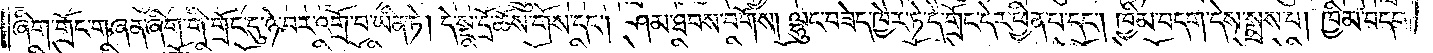ཞིག་གྲོང་གཞན་ཞིག་གི་གྲོང་དུ་ཉེ་བར་འགྲོ་བ་ཡིན་ཏེ། དེ་སྔ་དྲོ་ཆོས་གོས་དང༌། ཤམ་ཐབས་བགོས། ལྷུང་བཟེད་ཁྱེར་ཏེ་དེ་གྲོང་དེར་ཕྱིན་པ་དང༌། ཁྱིམ་བདག་དེས་སྨྲས་པ། ཁྱིམ་བདག་
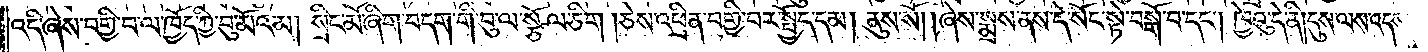འདི་ཞེས་བགྱི་བ་ལ་ཁྱོད་ཀྱི་བུ་མོའམ། སྲིང་མོ་ཞིག་བདག་གི་བུ་ལ་སྩོལ་ཅིག །ཅེས་འཕྲིན་བགྱི་བར་སྤྱོད་དམ། ནུས་སོ། །ཞེས་སྨྲས་ནས་དེ་སོང་སྟེ་བསྒོ་བ་དང༌། ཁྱེའུ་དེ་ནི། དུས་ལས་འདས་
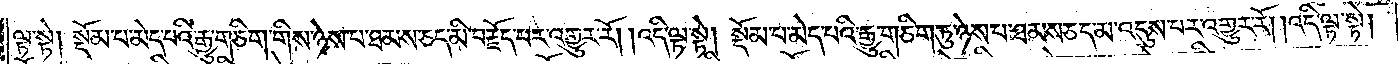ལྟ་སྟེ། སྡོམ་པ་མེད་པའི་རྒྱུ་གཅིག་གིས་ཉེས་པ་ཐམས་ཅད་མི་བརྗོད་པར་འགྱུར་རོ། །འདི་ལྟ་སྟེ། སྡོམ་པ་མེད་པའི་རྒྱུ་གཅིག་ཏུ་ཉེས་པ་ཐམས་ཅད་མ་འདུས་པར་འགྱུར་རོ། །འདི་ལྟ་སྟེ།
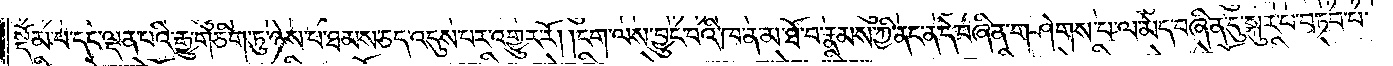སྡོམ་པ་དང་ལྡན་པའི་རྒྱུ་གཅིག་ཏུ་ཉེས་པ་ཐམས་ཅད་དུ་འདུས་པར་འགྱུར་རོ། །ངག་ལས་བྱུང་བའི་ཁ་ན་མ་ཐོ་བ་རྣམས་ཀྱི་ནང་ན་དེ་བཞིན་གཤེགས་པ་ལ་མེད་བཞིན་དུ་སྐུར་པ་བཏབ་པ་
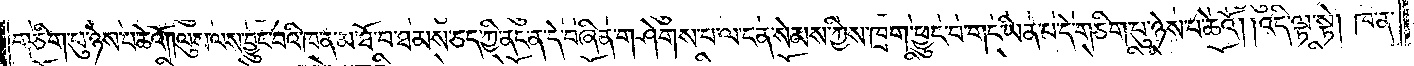གཅིག་པུ་ཉེས་པ་ཆེའོ། །ལུས་ལས་བྱུང་བའི་ཁ་ན་མ་ཐོ་བ་ཐམས་ཅད་ཀྱི་ནང་ན་དེ་བཞིན་གཤེགས་པ་ལ་ངན་སེམས་ཀྱིས་ཁྲག་ཕྱུང་བ་གང་ཡིན་པ་དེ་གཅིག་པུ་ཉེས་པ་ཆེའོ། །འདི་ལྟ་སྟེ། ཁ་ན་
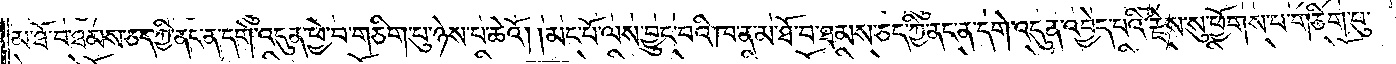མ་ཐོ་བ་ཐམས་ཅད་ཀྱི་ནང་ན་དགེ་འདུན་ཕྱེ་བ་གཅིག་པུ་ཉེས་པ་ཆེའོ། །མང་པོ་ལས་བྱུང་བའི་ཁ་ན་མ་བ་ཐོ་བ་ཐམས་ཅད་ཀྱི་ནང་ན་དགེ་འདུན་འབྱེད་པའི་རྗེས་སུ་ཕྱོགས་པ་གཅིག་པུ་
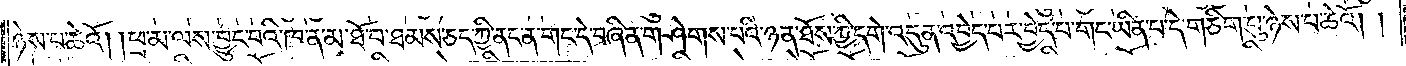ཉེས་པ་ཆེའོ། །ཕྲ་མ་ལས་བྱུང་བའི་ཁ་ན་མ་ཐོ་བ་ཐམས་ཅད་ཀྱི་ནང་ན་གང་དེ་བཞིན་གཤེགས་པའི་ཉན་ཐོས་ཀྱི་དགེ་འདུན་འབྱེད་པར་བྱེད་པ་གང་ཡིན་པ་དེ་གཅིག་པུ་ཉེས་པ་ཆེའོ། །
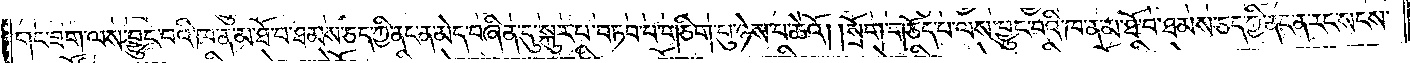གང་ཟག་ལས་བྱུང་བའི་ཁ་ན་མ་ཐོ་བ་ཐམས་ཅད་ཀྱི་ནང་ན་མེད་བཞིན་དུ་སྐུར་པ་བཏབ་པ་གཅིག་པུ་ཉེས་པ་ཆེའོ། །སྲོག་གཅོད་པ་ལས་བྱུང་བའི་ཁ་ན་མ་ཐོ་བ་ཐམས་ཅད་ཀྱི་ནང་ན་རང་སངས་
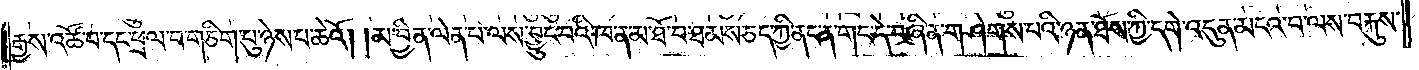རྒྱས་འཚོ་བ་དང་ཕྲལ་བ་གཅིག་པུ་ཉེས་པ་ཆེའོ། །མ་བྱིན་ལེན་པ་ལས་བྱུང་བའི་ཁ་ན་མ་ཐོ་བ་ཐམས་ཅད་ཀྱི་ནང་ན་གང་དེ་བཞིན་གཤེགས་པའི་ཉན་ཐོས་ཀྱི་དགེ་འདུན་མངའ་བ་ལས་བརྐུས་
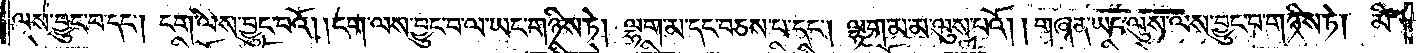ལས་བྱུང་བ་དང༌། ངག་ལས་བྱུང་བའོ། །ངག་ལས་བྱུང་བ་ལ་ཡང་གཉིས་ཏེ། ལྷག་མ་དང་བཅས་པ་དང༌། ལྷག་མ་མ་ལུས་པའོ། །གཞན་ཡང་ལུས་ལས་བྱུང་བ་གཉིས་ཏེ། མི་
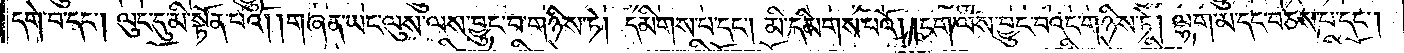དགེ་བ་དང༌། ལུང་དུ་མི་སྟོན་པའོ། །གཞན་ཡང་ལུས་ལས་བྱུང་བ་གཉིས་ཏེ། དམིགས་པ་དང༌། མི་དམིགས་པའོ། །ངག་ལས་བྱུང་བའང་གཉིས་ཏེ། ལྷག་མ་དང་བཅས་པ་དང༌།
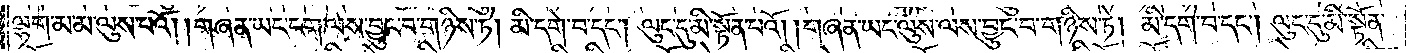ལྷག་མ་མ་ལུས་པའོ། །གཞན་ཡང་ངག་ལས་བྱུང་བ་གཉིས་ཏེ། མི་དགེ་བ་དང༌། ལུང་དུ་མི་སྟོན་པའོ། །གཞན་ཡང་ལུས་ལས་བྱུང་བ་གཉིས་ཏེ། མི་དགེ་བ་དང༌། ལུང་དུ་མི་སྟོན་
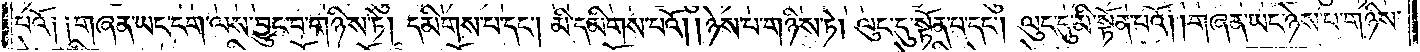པའོ༑ ༑གཞན་ཡང་ངག་ལས་བྱུང་བ་གཉིས་ཏེ། དམིགས་པ་དང༌། མི་དམིགས་པའོ། །ཉེས་པ་གཉིས་ཏེ། ལུང་དུ་སྟོན་པ་དང༌། ལུང་དུ་མི་སྟོན་པའོ། །གཞན་ཡང་ཉེས་པ་གཉིས་
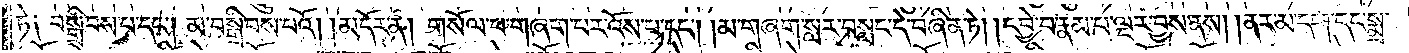ཏེ༑ བསྒྲིབས་པ་དང༌། མ་བསྒྲིབས་པའོ།    །མདོར་ན། གསོལ་པ་གཞག་པར་འོས་པ་དང༌། །མ་གཞག་སླར་བསླང་དེ་བཞིན་ཏེ། །དབྱེ་བ་རྣམ་པ་ལྔར་བྱས་ནས། །ནར་མ་དག་དང་སྨྲ་
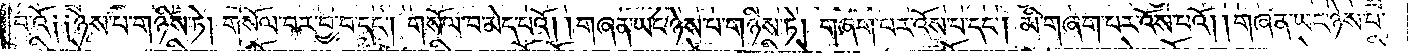བའོ༑ ༑ཉེས་པ་གཉིས་ཏེ། གསོལ་བར་བྱ་བ་དང༌། གསོལ་བ་མེད་པའོ། །གཞན་ཡང་ཉེས་པ་གཉིས་ཏེ། གཞག་པར་འོས་པ་དང༌། མི་གཞག་པར་འོས་པའོ། །གཞན་ཡང་ཉེས་པ་
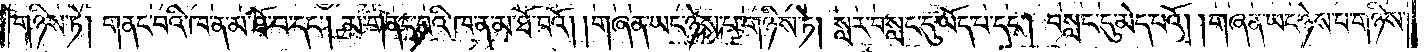གཉིས་ཏེ། གནང་བའི་ཁ་ན་མ་ཐོ་བ་དང༌། མ་གནང་བའི་ཁ་ན་མ་ཐོ་བའོ། །གཞན་ཡང་ཉེས་པ་གཉིས་ཏེ། སླར་བསླང་དུ་ཡོད་པ་དང༌། བསླང་དུ་མེད་པའོ། །གཞན་ཡང་ཉེས་པ་གཉིས་
